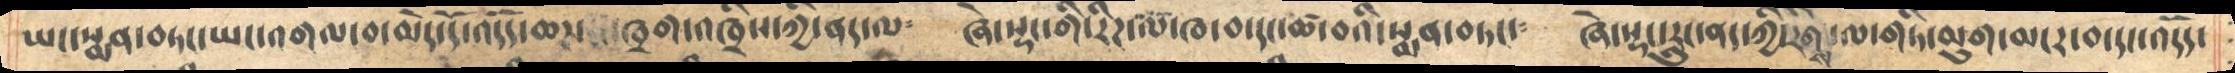ཡང་སྨན་བཏང་ཡང་འགལ་བ་མེད་དོ་འདོད་ཆཌ་ཁྲག་འཁྲིས་ཀྱི་ནད་ལ༴   ཞེ་སྡང་གི་རིཌ་ལ་ཁ་བ་དང་ཚ་བའི་སྨན་བཏང་༴  ཞེ་སྡང་རླུང་ནད་ཀྱི་རིགས་ལ་གཏི་མུག་མངར་བ་དང་འདོད་
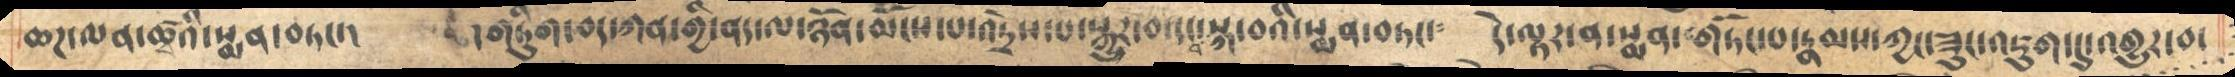ཆཌ་ལན་ཚྭའི་སྨན་བཏང་།   །གཏིུག་བད་ཀན་གྱི་ནད་ལ་ཉོན་མོངས་པ་འདྲེས་པ་སྐྱུར་བ་དང་བསྐ་བའི་སྨན་བཏང་༴  དེ་ལྟར་ན་སྨན་གཏོང་པ་རྣམས་ཀྱང་ཟུང་འཇུག་དུ་འགྱུར་བ་
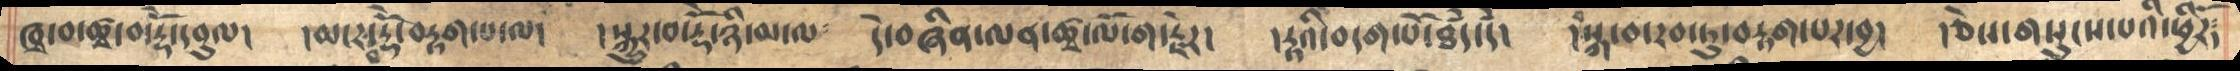ཁྭ་བ་ཚྭ་བ་རྡོེ་དབུལ།  །མངར་བ་རྡོེ་བརྟག་པ་ལ། །སྐྱུར་བ་རྡོེ་ཉི་མ་ལ༴  དེ་བཞིན་ལན་ཚྭ་ལོ་ག་རྗེར། །རྟའི་བདག་པོ་ཐཾད་དཾ། །བསྐ་བ་རབ་ཏུ་བརྟག་པར་བྱ། །ཅེས་གསུངས་པའི་ཕྱིརོ༴
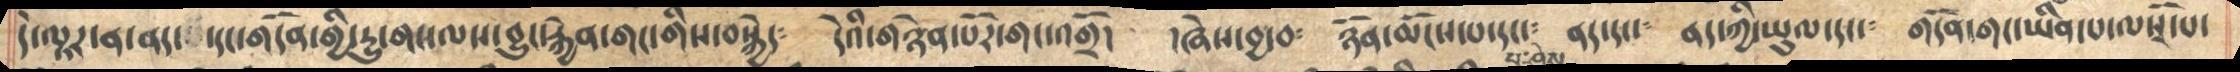དེ་ལྟར་ན་ནད་དང་གདོན་གྱི་དྱུ་གང་ལས་བྱུང་རྐྱེན་གང་གིས་བསྐྱེད༴  དེའི་གཉེན་པོར་གང་འགྲོ།  །ཞེས་བྱ་བ༴  ཉོན་མོངས་པ་དང་༴  ནད་དང་༴ ནད་ཀྱི་ཡུལ་དང་༴  གདོན་གང་ཡིན་པ་ལསྭོ་པ་
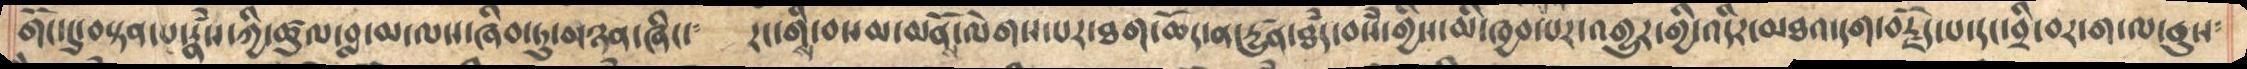གོང་དུ་བསྟན་པ་རྣཾས་ཀྱི་ཚུལ་བླ་མ་ལས་ཞིབ་ཏུ་མཉན་ཞིང་༴  རང་གིས་བསམ་མནོས་ལེགས་པར་ཐག་ཆོད་ན་དྱུཚན་ཐཾད་བསཾ་གྱིས་མི་ཁྱབ་པར་འགྱུར་གྱི་འདིར་མཐའ་དག་བརྗོད་པ་དང་བྲི་བར་ག་ལ་ནུས༴
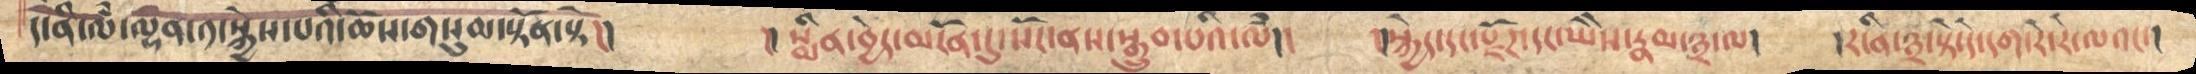དེ་ནི་ལཾ་ལྷན་༡་སྐྱེས་པའི་ཆོས་གསུམ་སྟོན་སྟེ།།    །།སྨིན་བྱེད་མངོན་དུ་སོང་ནས་སྒྲུབ་པའི་ལཾ།།   །།སྐྱེད་དང་རྫོཌ་དང་ཡཻས་རྣམ་༣་ལ།   །རངིན་༣་སྟེ་དེ་དག་རེ་རེ་ལའང་།
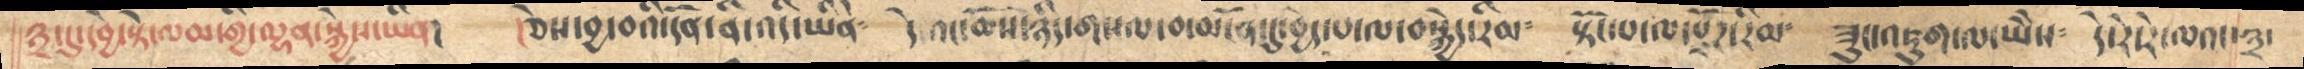༣་དུ་དབྱེ་སྟེ་ལམ་གྱི་ལྷན་སྐྱེས་ཡིན།       །ཅེས་བྱ་བའི་དོན་ནི་འདི་ཡིནེ༴   དེའང་ཆོས་ཉིད་གསལ་བ་མངོན་དུ་བྱེད་པ་ལ་བསྐྱེད་རིམ༴     སྟོང་པ་ལ་རྫོཌ་རིམ༴    ཟུང་འཇུག་ལ་ཡཻས༴  དེ་རེ་རེ་ལའང་༣་
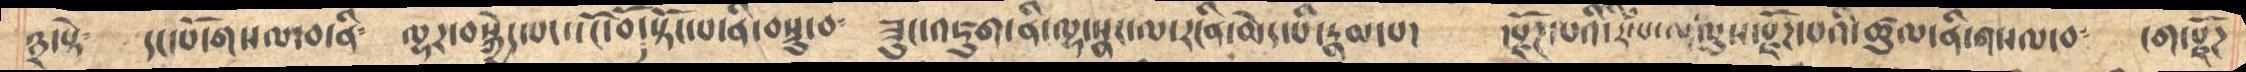༣་སྟེ༴     དང་པོ་གསལ་བ་ནི༴     ལྷར་བསྐྱེད་པད་་ངོ་བོ་སྟོང་པ་ནི་བསྡུ་བ༴   ཟུང་འཇུག་ནི་ལྷ་སྣང་ལ་རངིན་མེད་པའི་རྣམ་པ།  །རྫོཌ་པའི་རིཾ་པ་ལ་ལུས་རྫོཌ་པའི་ཚུལ་ནི་གསལ་བ༴   ངག་རྫོཌ
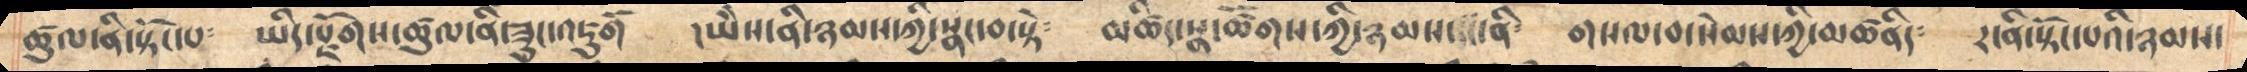ཚུལ་ནི་སྟོང་པ༴    ཡིད་རྫོཌ་ཚུལ་ནི་ཟུང་འཇུགོ    །ཡཻས་ནི་ཉམས་ཀྱི་སྣང་བ་སྟེ༴    མཚིད་སྣ་ཚོགས་ཀྱི་ཉམས་དང་ནི༴    གསལ་བ་སེམས་ཀྱི་མཚནིད༴   རངིན་སྟོང་པའི་ཉམས་
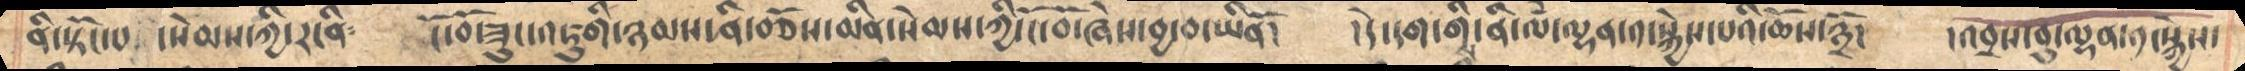ནི་སྟོང་པ་སེམས་ཀྱི་རངིན༴   ངོ་བོ་ཟུང་འཇུགི་ཉམས་ནི་བཅོས་མིན་སེམས་ཀྱི་ངོ་བོ་ཞེས་བྱ་བ་ཡིནོ། །དེ་དག་གིས་ལཾ་ལྷན་༡་སྐྱེས་པའི་ཆོས་༣ོ།  །འབྲས་བུ་ལྷན་༡་སྐྱེས་
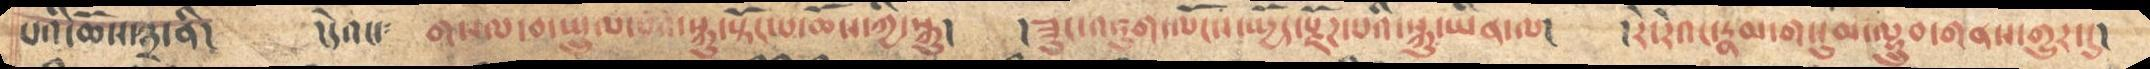པའི་ཆོས་༣་ནི།     །དེའང་༴      གསལ་བ་སྤྲུལ་པའི་སྐུ་སྟོང་པ་ཆོས་ཀྱི་སྐུ།    །ཟུང་འཇུག་ལོངས་སྤྱོད་རྫོཌ་པའི་སྐུ་ཡིན་ལ།   །རེ་རེའང་རྣམ་གསུམ་ལྡྲུབ་གནས་གྱུར་དུ།
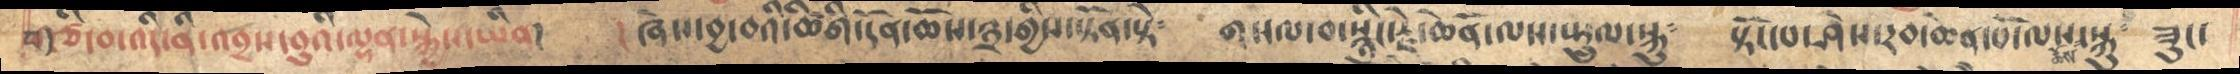གཙི་བ་འདི་ནི་འབྲས་བུའི་ལྷན་སྐྱེས་ཡིན།   །ཞེས་བྱ་བའི་ཚིགི་དོན་ཆོས་༣་གྱིས་སྟོན་སྟེ༴   གསལ་བ་སྙིང་རྗེ་ཆེནོ་ལས་སྤྲུལ་སྐུ༴   སྟོང་པ་ཤེས་རབ་ཆེན་པོ་ལས་ཆོས་སྐུ༴  ཟུང་
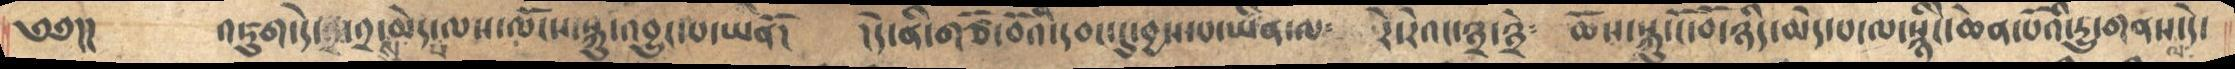༄༅།།    འཇུག་དེ་༢་སུ་མེད་པ་ལས་ལོངས་སྐུ་འབྱུང་པ་ཡིནོ།  །དེ་ནི་གཙོ་བོའི་དབང་དུ་བྱས་པ་ཡིན་ལ༴  རེ་རེའང་༣་༣ེ༴  ཆོས་སྐུ་ངོ་བོ་ཉིད་མེད་པ་ལ་སྙིངེ་ཆེན་པོའི་དྱུ་གནས་ལ་དེ་
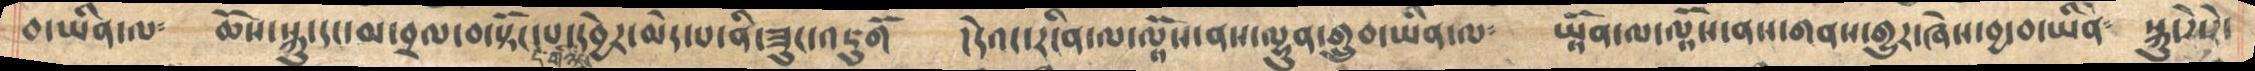བ་ཡིན་ལ༴  ཆོས་སྐུ་དང་མ་བྲལ་བ་སྟོང་པ་དེ་གཉིས་དབྱེར་མེད་པ་ནི་ཟུང་འཇུགོ   །དེའང་རངིན་ལྟོས་ནས་ལྷུན་གྲུབ་ཡིན་ལ༴  ཡྟོན་ལ་ལྟོས་ནས་གནས་གྱུར་ཞེས་བྱ་བ་ཡིནེ༴  སྐུ་རེ་རེ་
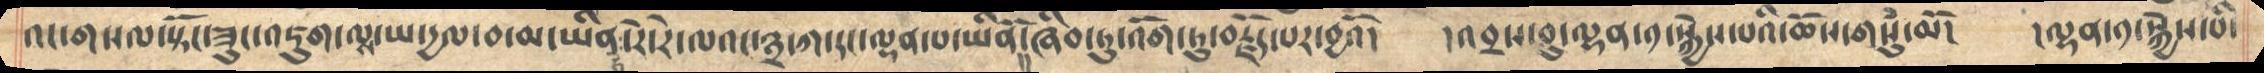འང་གསལ་སྟོང་ཟུང་འཇུག་ལས་ཡ་དྱལ་བ་མ་ཡིན་ཏེ་རེ་རེ་ལའང་༣་ཀ་དང་ལྡན་པ་ཡིནོ།། ཞིབ་ཏུ་འོག་ཏུ་བརྗོད་པར་བྱའོ།   །འབྲས་བུ་ལྷན་༡་སྐྱེས་པའི་ཆོས་གསུཾ་མོ།   །ལྷན་༡་སྐྱེས་པའི
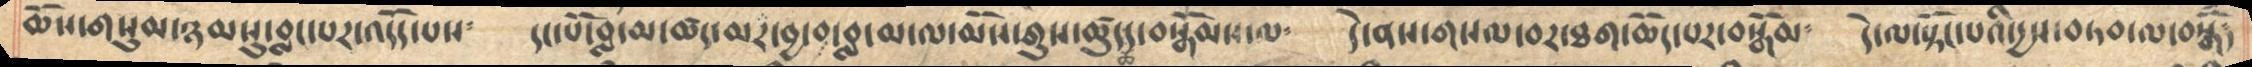ཆོས་གསུམ་ཉམསུ་བླང་པར་འདོད་པས༴   དང་པོ་བླ་མ་ཚད་མར་བྱ་བ་བླ་མ་ལ་མོས་གུས་ཚུད་ཆད་བསྒོམས་ལ༴  དེ་ནས་གསལ་བར་ཐག་ཆོད་པར་བསྒོམ༴  དེ་ལ་སྟོང་པའི་དྱས་བཏབ་ལ་བསྒོཾ།
